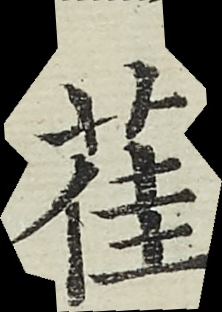萑
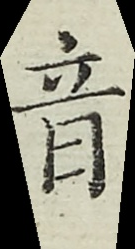音
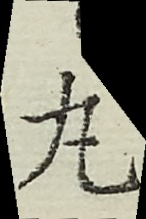丸
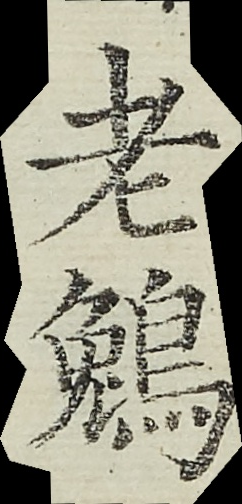老鵵
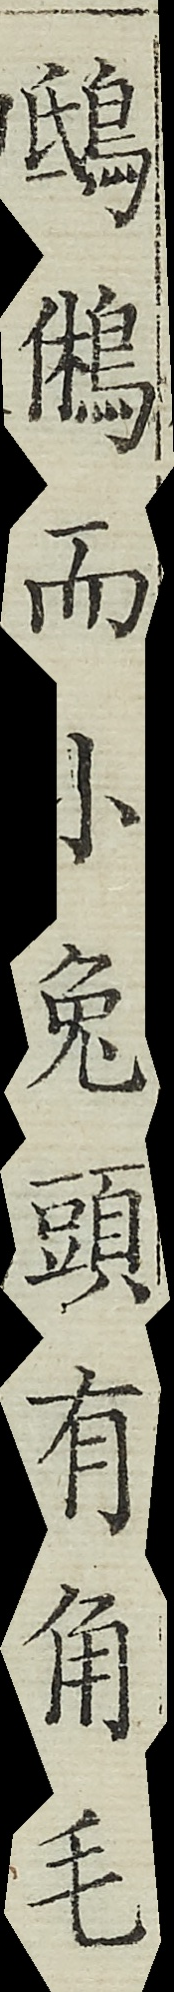鴟鵂而小兔頭有角毛
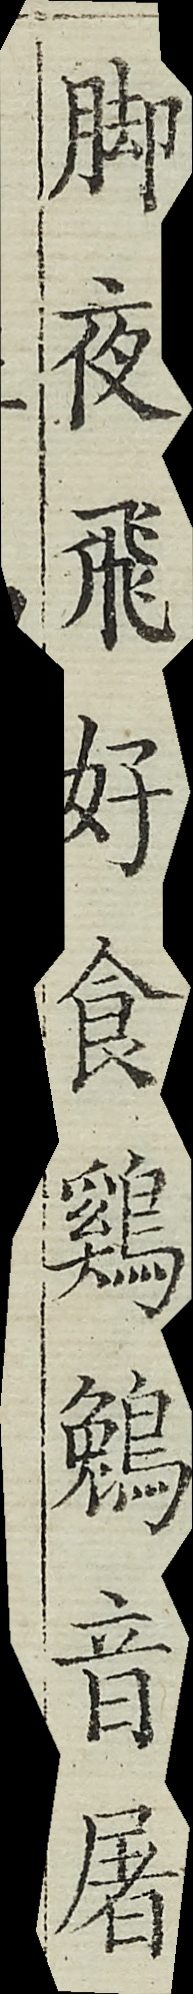脚夜飛好食鷄鵵音屠
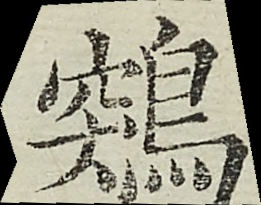鶟
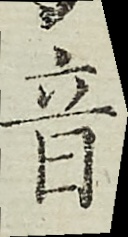音
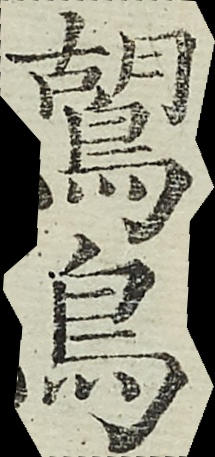鶦鳥
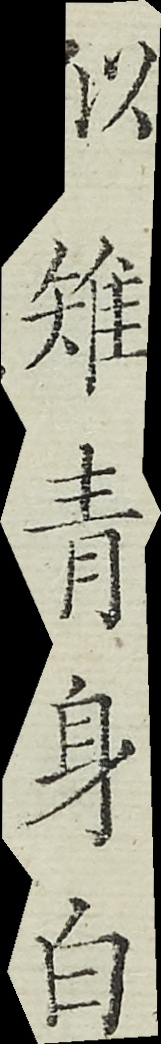似雉青身白
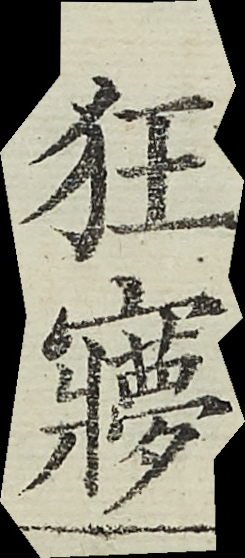狂㝱
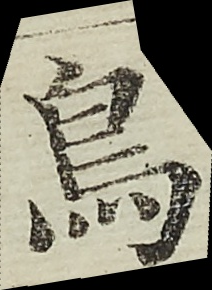鳥
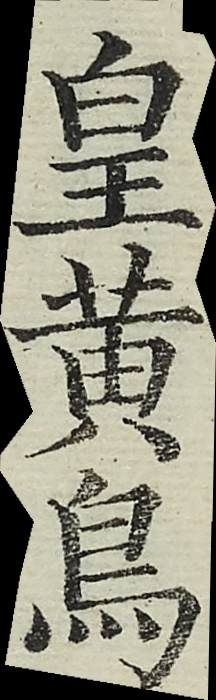皇黃鳥
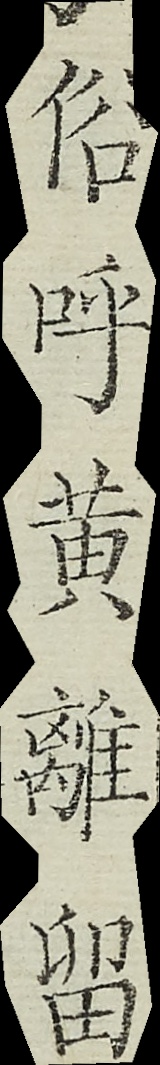俗呼黃離留
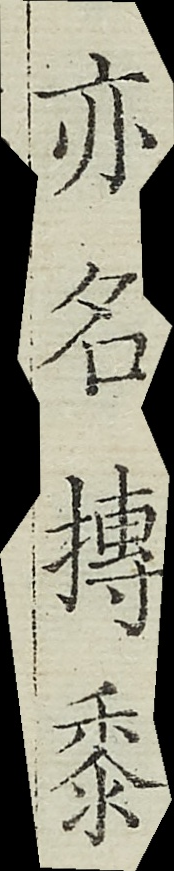亦名搏黍
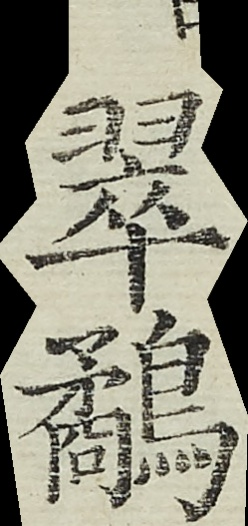翠鷸
